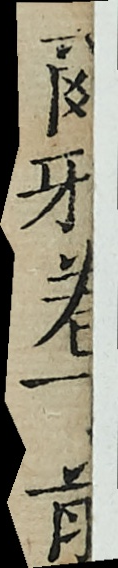爾雅卷一前
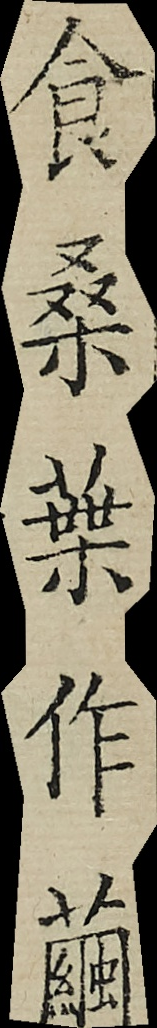食桑葉作繭
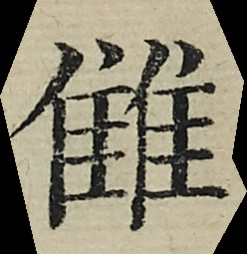雔
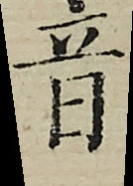音
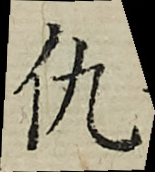仇
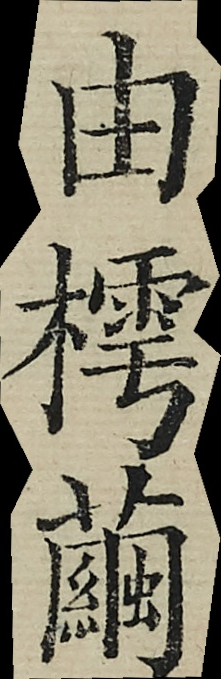由樗繭
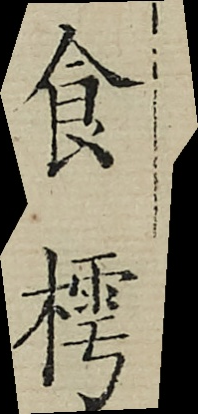食樗
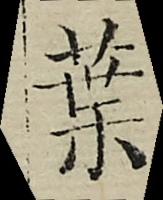葉
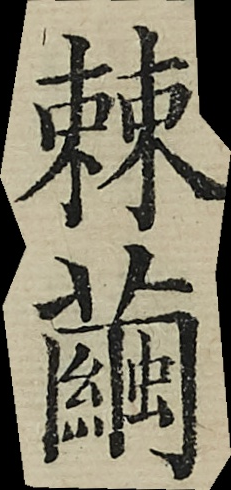棘繭
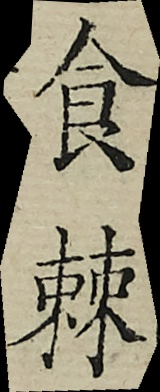食棘
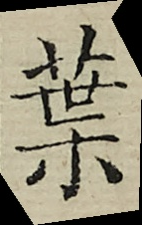葉
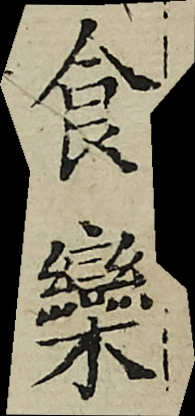食欒
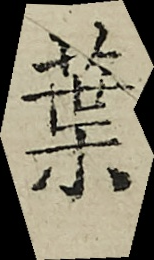葉
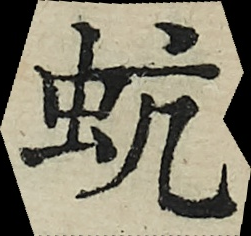蚢
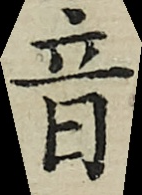音
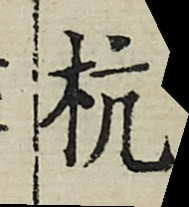杭
